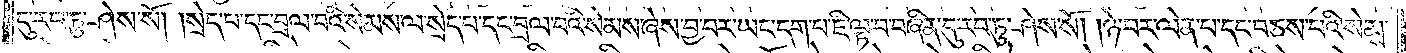དུ་རབ་ཏུ་ཤེས་སོ། །སྲེད་པ་དང་བྲལ་བའི་སེམས་ལ་སྲེད་པ་དང་བྲལ་བའི་སེམས་ཞེས་བྱ་བར་ཡང་དག་པ་ཇི་ལྟ་བ་བཞིན་དུ་རབ་ཏུ་ཤེས་སོ། །ཉེ་བར་ལེན་པ་དང་བཅས་པའི་སེམས་
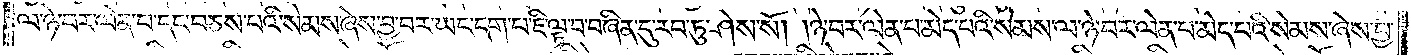ལ་ཉེ་བར་ལེན་པ་དང་བཅས་པའི་སེམས་ཞེས་བྱ་བར་ཡང་དག་པ་ཇི་ལྟ་བ་བཞིན་དུ་རབ་ཏུ་ཤེས་སོ། །ཉེ་བར་ལེན་པ་མེད་པའི་སེམས་ལ་ཉེ་བར་ལེན་པ་མེད་པའི་སེམས་ཞེས་བྱ་
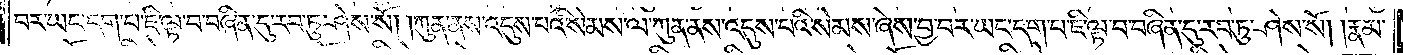བར་ཡང་དག་པ་ཇི་ལྟ་བ་བཞིན་དུ་རབ་ཏུ་ཤེས་སོ། །ཀུན་ནས་འདུས་པའི་སེམས་ལ་ཀུན་ནས་འདུས་པའི་སེམས་ཞེས་བྱ་བར་ཡང་དག་པ་ཇི་ལྟ་བ་བཞིན་དུ་རབ་ཏུ་ཤེས་སོ། །རྣམ་
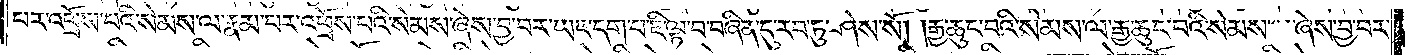པར་འཕྲོས་པའི་སེམས་ལ་རྣམ་པར་འཕྲོས་པའི་སེམས་ཞེས་བྱ་བར་ཡང་དག་པ་ཇི་ལྟ་བ་བཞིན་དུ་རབ་ཏུ་ཤེས་སོ། །རྒྱ་ཆུང་བའི་སེམས་ལ་རྒྱ་ཆུང་བའི་སེམས་ཞེས་བྱ་བར་
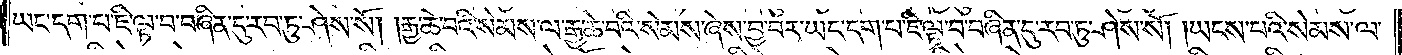ཡང་དག་པ་ཇི་ལྟ་བ་བཞིན་དུ་རབ་ཏུ་ཤེས་སོ། །རྒྱ་ཆེ་བའི་སེམས་ལ་རྒྱ་ཆེ་བའི་སེམས་ཞེས་བྱ་བར་ཡང་དག་པ་ཇི་ལྟ་བ་བཞིན་དུ་རབ་ཏུ་ཤེས་སོ། །ཡངས་པའི་སེམས་ལ་
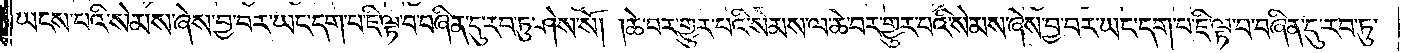ཡངས་པའི་སེམས་ཞེས་བྱ་བར་ཡང་དག་པ་ཇི་ལྟ་བ་བཞིན་དུ་རབ་ཏུ་ཤེས་སོ། །ཆེ་བར་གྱུར་པའི་སེམས་ལ་ཆེ་བར་གྱུར་པའི་སེམས་ཞེས་བྱ་བར་ཡང་དག་པ་ཇི་ལྟ་བ་བཞིན་དུ་རབ་ཏུ་
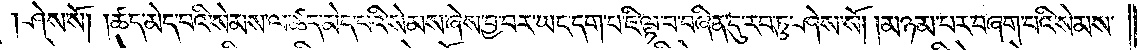ཤེས་སོ། །ཚད་མེད་པའི་སེམས་ལ་ཚད་མེད་པའི་སེམས་ཞེས་བྱ་བར་ཡང་དག་པ་ཇི་ལྟ་བ་བཞིན་དུ་རབ་ཏུ་ཤེས་སོ། །མཉམ་པར་བཞག་པའི་སེམས་
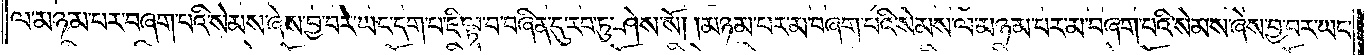ལ་མཉམ་པར་བཞག་པའི་སེམས་ཞེས་བྱ་བར་ཡང་དག་པ་ཇི་ལྟ་བ་བཞིན་དུ་རབ་ཏུ་ཤེས་སོ། །མཉམ་པར་མ་བཞག་པའི་སེམས་ལ་མཉམ་པར་མ་བཞག་པའི་སེམས་ཞེས་བྱ་བར་ཡང་
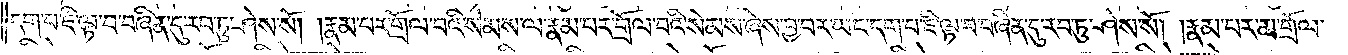དག་པ་ཇི་ལྟ་བ་བཞིན་དུ་རབ་ཏུ་ཤེས་སོ། །རྣམ་པར་གྲོལ་བའི་སེམས་ལ་རྣམ་པར་གྲོལ་བའི་སེམས་ཞེས་བྱ་བར་ཡང་དག་པ་ཇི་ལྟ་བ་བཞིན་དུ་རབ་ཏུ་ཤེས་སོ། །རྣམ་པར་མ་གྲོལ་
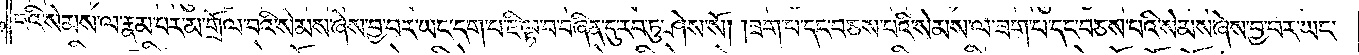བའི་སེམས་ལ་རྣམ་པར་མ་གྲོལ་བའི་སེམས་ཞེས་བྱ་བར་ཡང་དག་པ་ཇི་ལྟ་བ་བཞིན་དུ་རབ་ཏུ་ཤེས་སོ། །ཟག་པ་དང་བཅས་པའི་སེམས་ལ་ཟག་པ་དང་བཅས་པའི་སེམས་ཞེས་བྱ་བར་ཡང་
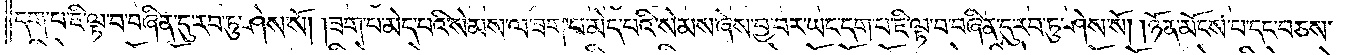དག་པ་ཇི་ལྟ་བ་བཞིན་དུ་རབ་ཏུ་ཤེས་སོ། །ཟག་པ་མེད་པའི་སེམས་ལ་ཟག་པ་མེད་པའི་སེམས་ཞེས་བྱ་བར་ཡང་དག་པ་ཇི་ལྟ་བ་བཞིན་དུ་རབ་ཏུ་ཤེས་སོ། །ཉོན་མོངས་པ་དང་བཅས་
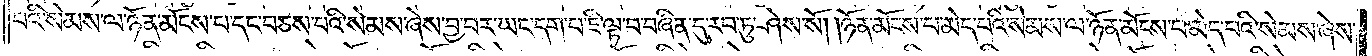པའི་སེམས་ལ་ཉོན་མོངས་པ་དང་བཅས་པའི་སེམས་ཞེས་བྱ་བར་ཡང་དག་པ་ཇི་ལྟ་བ་བཞིན་དུ་རབ་ཏུ་ཤེས་སོ། །ཉོན་མོངས་པ་མེད་པའི་སེམས་ལ་ཉོན་མོངས་པ་མེད་པའི་སེམས་ཞེས་
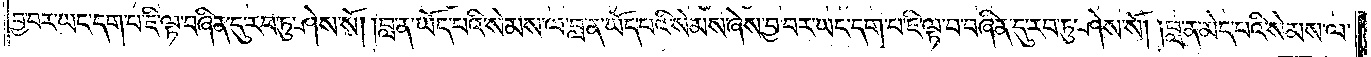བྱ་བར་ཡང་དག་པ་ཇི་ལྟ་བཞིན་དུ་རབ་ཏུ་ཤེས་སོ། །བླ་ན་ཡོད་པའི་སེམས་ལ་བླ་ན་ཡོད་པའི་སེམས་ཞེས་བྱ་བར་ཡང་དག་པ་ཇི་ལྟ་བ་བཞིན་དུ་རབ་ཏུ་ཤེས་སོ། །བླ་ན་མེད་པའི་སེམས་ལ་
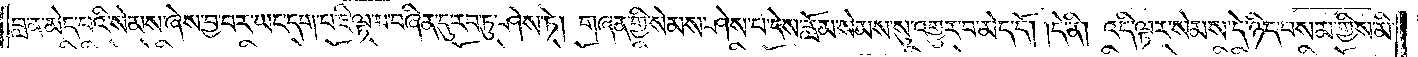བླ་ན་མེད་པའི་སེམས་ཞེས་བྱ་བར་ཡང་དག་པ་ཇི་ལྟ་བ་བཞིན་དུ་རབ་ཏུ་ཤེས་ཏོ། གཞན་གྱི་སེམས་ཤེས་པ་དེས་རློམ་སེམས་སུ་འགྱུར་བ་མེད་དོ། །དེ་ནི། འདི་ལྟར་སེམས་དེ་ཉིད་བསམ་གྱིས་མི་
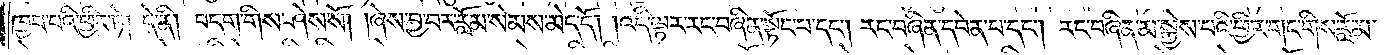ཁྱབ་པའི་ཕྱིར་ཏེ། དེ་ནི། བདག་གིས་ཤེས་སོ། །ཞེས་བྱ་བར་རློམ་སེམས་མེད་དོ། །འདི་ལྟར་རང་བཞིན་སྟོང་པ་དང༌། རང་བཞིན་དབེན་པ་དང༌། རང་བཞིན་མ་སྐྱེས་པའི་ཕྱིར་གང་གིས་རློམ་
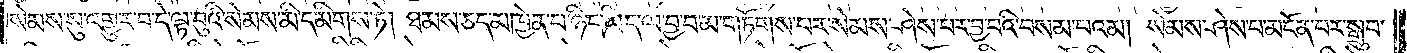སེམས་སུ་འགྱུར་བ་དེ་ལྟ་བུའི་སེམས་མི་དམིགས་ཏེ། ཐམས་ཅད་མཁྱེན་པ་ཉིད་ཡིད་ལ་བྱ་བ་མ་གཏོགས་པར་སེམས་ཤེས་པར་བྱ་བའི་བསམ་པའམ། སེམས་ཤེས་པ་མངོན་པར་སྒྲུབ་
